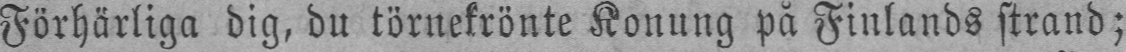Förhärliga dig, du törnekrönte Konung på Finlands strand;
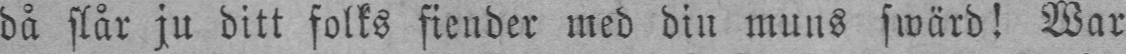då slår ju ditt folks fiender med din muns swärd! War
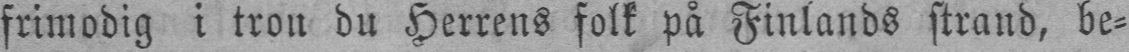frimodig i tron du Herrens folk på Finlands strand, be-
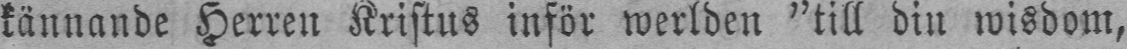kännande Herren Kristus inför werlden "till din wisdom,
